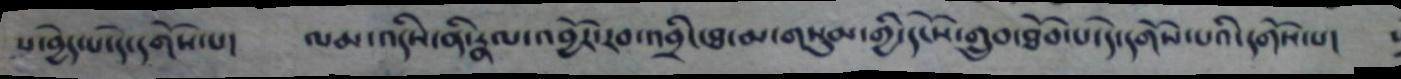པ་བྱེད་པ་དེ་དགོས་པ། ལམ་འདིས་ནི་རྣལ་འབྱོར་རབ་འབྲིང་ཐ་མ་གསུམ་གྱི་དངོས་གྲུབ་ཐོབ་པ་དེ་དགོས་པའི་དགོས་པ།
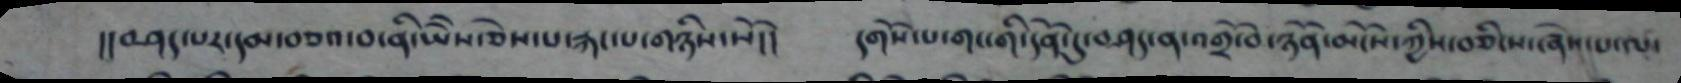།།བཤད་པར་དམ་བཅའ་བ་ནི་ཡཻས་ཅེས་པ་རྐང་པ་གཉིས་སོ།། དགོས་པ་གང་གི་དོན་དུ་བཤད་ན་འགྲོ་བ་ཉོན་མོངས་ཀྱིས་བཅིངས་ཞེས་པ་ལ་
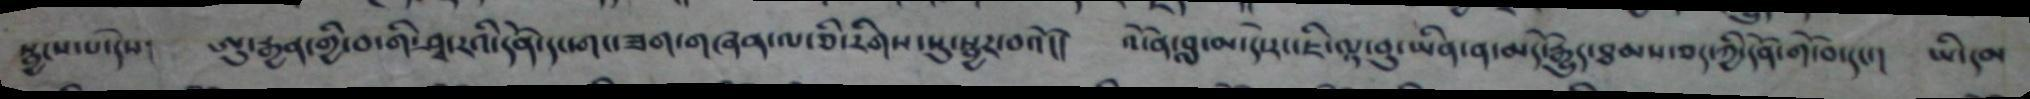སྦྱངས་པ་དེས། ཨུ་རྒྱན་གྱི་བ་གི་ཤྭ་རའི་དོན་དང་གང་ཟག་གཞན་ལ་ཅི་རིགས་སུ་སྦྱར་བའོ།། འོ་ན་བླ་མ་དེ་རང་ཇི་ལྟ་བུ་ཡིན་ན་མདོ་རྒྱུད་ཐམས་ཅད་ཀྱི་དོན་གོ་བ་དང་། ཡི་དམ
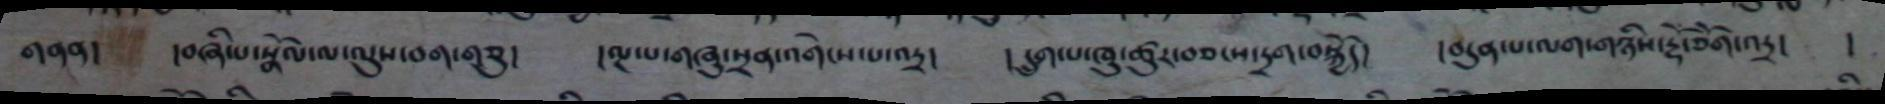གནན། །བཞི་པ་སྣོལ་ལ་ལུས་བག་གཅུ། །ལྔ་པ་གཞུ་སྲན་འགེངས་པ་འདྲ། ། དྲུག་པ་ཁུ་ཚུར་བཅངས་དྲག་བསྐྱོད། །བདུན་པ་ལག་གཉིས་རྡོ་ཅོག་འདྲ། །
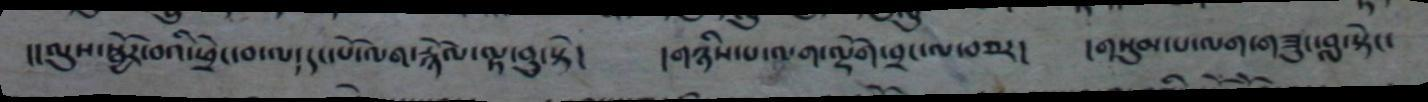།།ལུས་སྦྱོར་བའི་ཕྲེང་བ་ལ་དང་པོ་ལག་རྙོལ་ལྟ་བུ་སྟེ། །གཉིས་པ་ལག་ལྡོག་བྲང་ལ་བཅར། །གསུམ་པ་ལག་གཟུང་བླ་སྟེང་
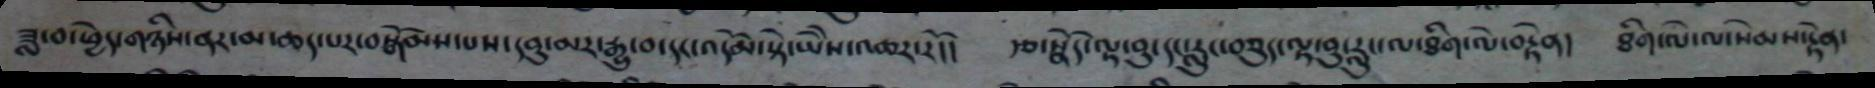ཟླ་བ་ཕྱེད་གཉིས་ནར་མ་ཆད་པར་བསྒོམས་པས་དབུ་མར་རྒྱུ་བ་དང་འདོམ་སྟེ་ཡཻས་འཆར་རོ།། རྩ་སྣོད་ལྟ་བུ་དང་རླུང་བཅུད་ལྟ་བུ་རླུང་ལ་ཐིག་ལེ་བརྟེན། ཐིག་ལེ་ལ་སེམས་རྟེན་
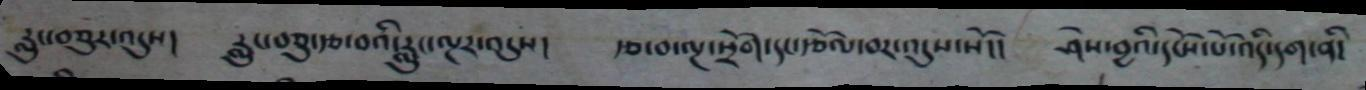རླུང་བཅུར་འདུས། རླུང་བཅུ་རྩ་བའི་རླུང་ལྔར་འདུས། རྩ་བ་ལྔ་སྲོག་དང་རྩོལ་བར་འདུས་སོ།། ཤེས་བྱའི་དངོས་པོ་འདི་དག་ནི།
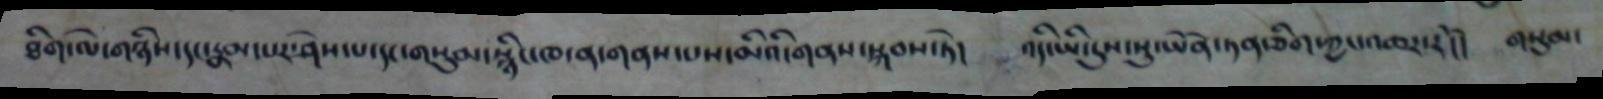ཐིག་ལེ་གཉིས་དང་རྣམ་པར་ཤེས་པ་དང་གསུམ་སྙིང་ཁ་ན་གནས་པས་མིའི་གནས་སྐབས་ཏེ། འདི་ཡི་དུས་སུ་ཡོན་ཏན་ཅིག་ཀྱང་འཆར་རོ།། གསུམ་
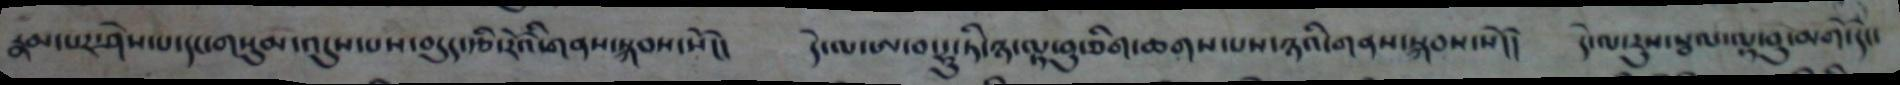རྣམ་པར་ཤེས་པ་དང་གསུམ་འདུས་པས་བདུད་རྩི་རོའི་གནས་སྐབས་སོ།། དེ་ལ་ཨ་བ་དྷུ་ཏི་ཉ་ལྟ་བུ་ཅིག་ཆགས་པས་ཉའི་གནས་སྐབས་སོ།། དེ་ལ་རུས་སྦལ་ལྟ་བུ་མགོ་དང་
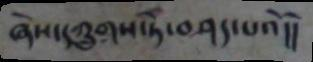ཞེས་དཀྲུགས་ཏེ་བཤད་པའོ།།
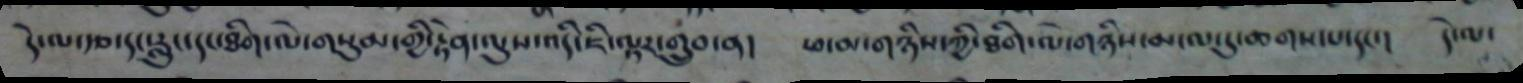དེ་ལ་རྩ་དང་རླུང་དང་ཐིག་ལེ་གསུམ་གྱི་རྟེན་ལུས་འདི་ཇི་ལྟར་གྲུབ་ན། ཕ་མ་གཉིས་ཀྱི་ཐིག་ལེ་གཉིས་མ་ལ་དུ་ཆགས་པ་དང་། དེ་ལ་
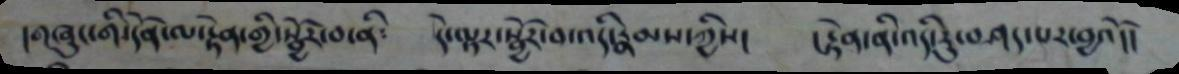།གཞུང་གི་དོན་ལ་རྟེན་གྱི་སྦྱོར་བ་ནི༴ དེ་ལྟར་སྦྱོར་བ་འདི་རྣམས་ཀྱིས། །རྟེན་ནི་འདི་རུ་བཤད་པར་བྱའོ།།
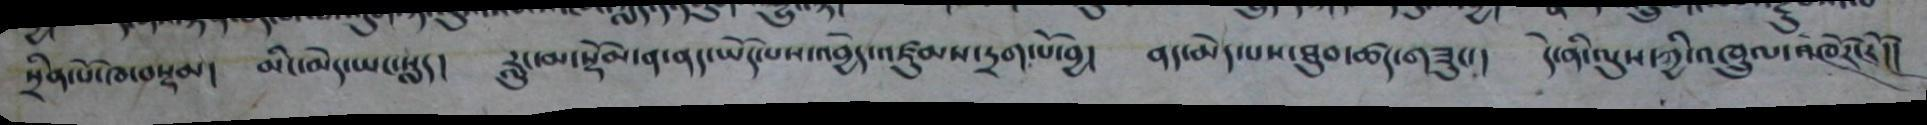སྲིན་པོ་ཁ་བསྡམ། མིང་མེད་ཡང་སླད། རླུང་མ་སྡོམ་ན་ནད་ཡོད་པས་འབྱེད་འཛུམས་དྲག་པོ་བྱ། ནད་མེད་པས་ཐུབ་ཚད་གཟུང་། དེ་ནི་ལུས་ཀྱི་འཁྲུལ་འཁོར་རོ།།
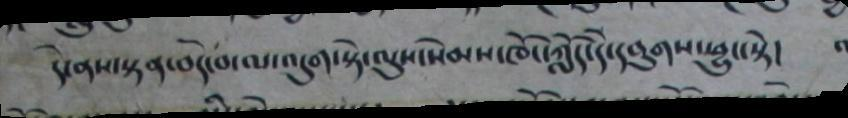དེ་ནས་སྟན་བདེ་བ་ལ་འདུག་སྟེ་ལུས་སེམས་ཁོང་ཀློད་དེ་དབུགས་ཕྱུང་སྟེ།
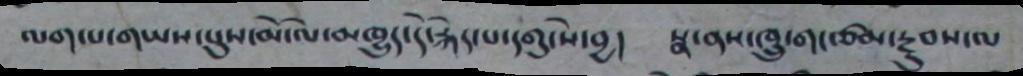ལག་ོ་གཡས་པུས་མོ་ལ་མཁྱུད་དེ་རྐེད་པ་དགུ་སེ་བྱ། སྣ་ནས་ཁྲུ་གང་ཙམ་རྔུབས་ལ
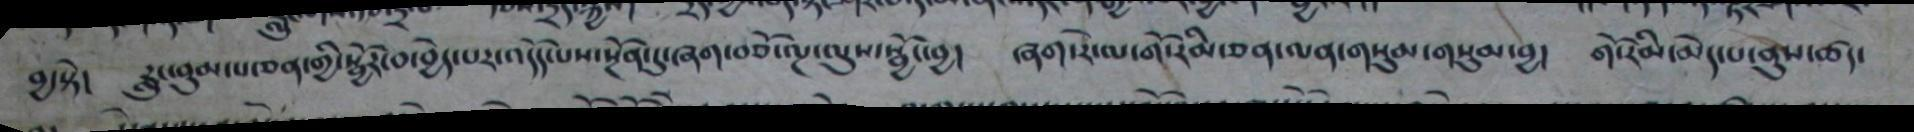བྱ་སྟེ། རླུང་བུམ་པ་ཅན་གྱི་སྦྱོར་བ་བྱེད་པར་འདོད་པས་སྔོན་དུ་ཞག་བཅོ་ལྔ་ལུས་སྦྱོང་བྱ། ཞག་རེ་ལ་གོ་རིམ་ཅན་ལན་གསུམ་གསུམ་བྱ། གོ་རིམ་མེད་པ་ནུས་ཚད་
